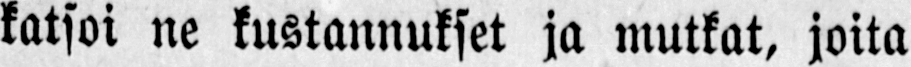katsoi ne kustannukset ja mutkat, joita
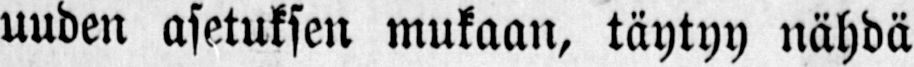uuden asetuksen mukaan, täytyy nähdä
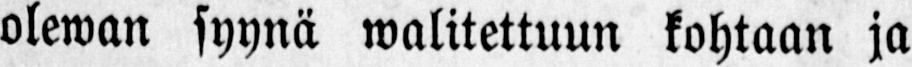oleman syynä kohtaan ja
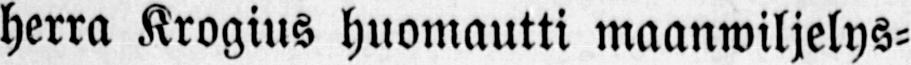herra Krogius huomautti maanwiljelys-
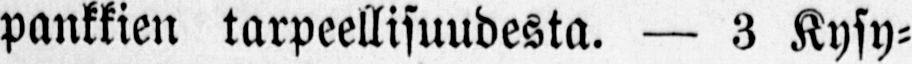pankkien tarpeellisuudesta. — 3 Kysy-
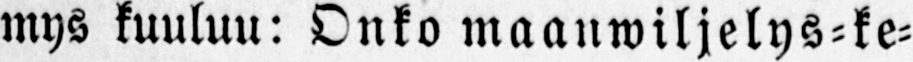mys kuuluu: Onko maanwiljelys-ke-
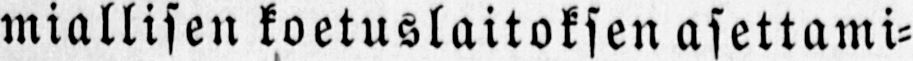miallisen koetuslaitoksen asettami-
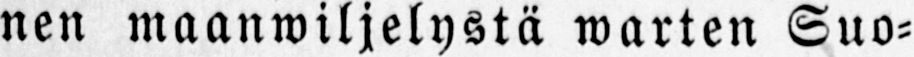nen maanwiljelystä warten Suo-
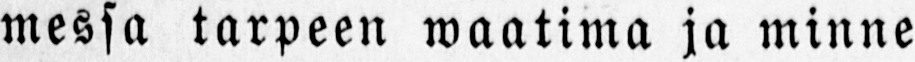messa tarpeen waalima ja minne
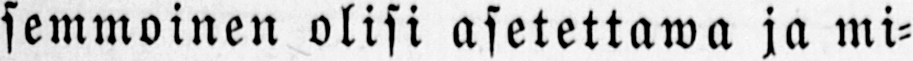semmoinen olisi asetettawa ja mi-
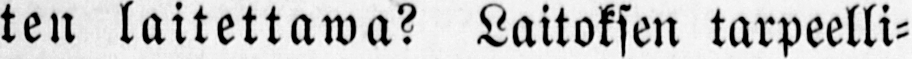ten laitettawa? Laitoksen tarpeelli-
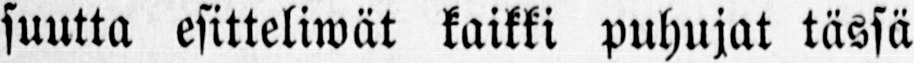suutta esitteliwät kaikki puhujat tässä
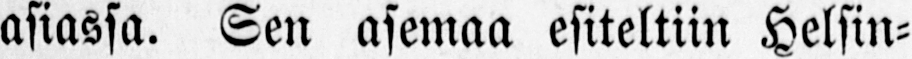asiassa. Sen asemaa esiteltiin Helsin-
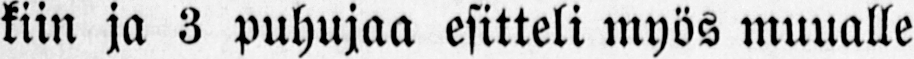kiin ja 3 puhujaa esitteli myös muualle
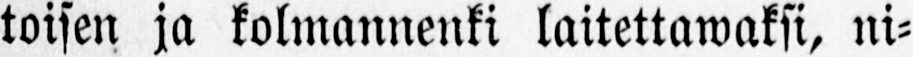toisen ja kolmannenki laitettawaksi, ni-
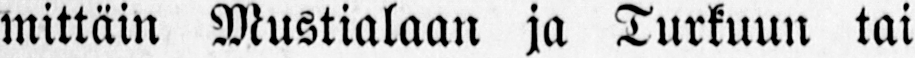mittäin Mustialaan ja Turkuun tai
